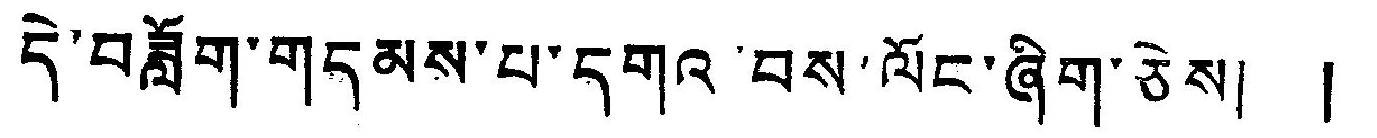དེ་བཟློག་གདམས་པ་དགའ་བས་ལོང་ཞིག་ཅེས། །
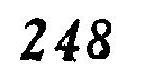248
